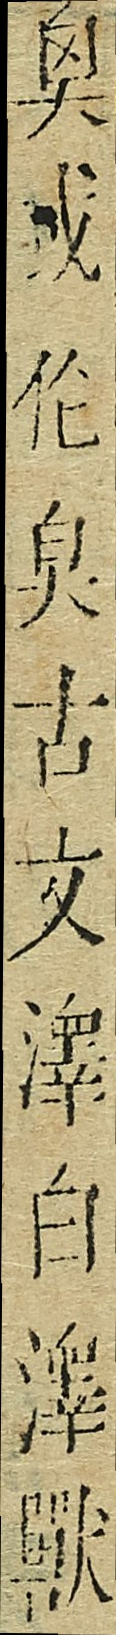臭或倫臭古文澤白澤獸
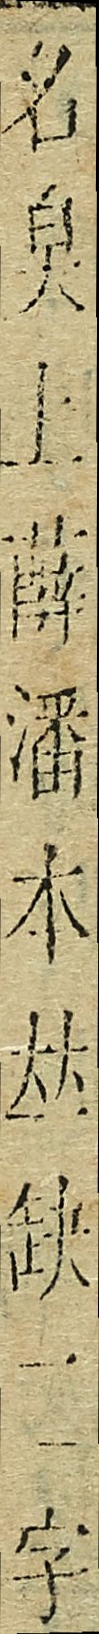名臭上薛潘本從缺二字
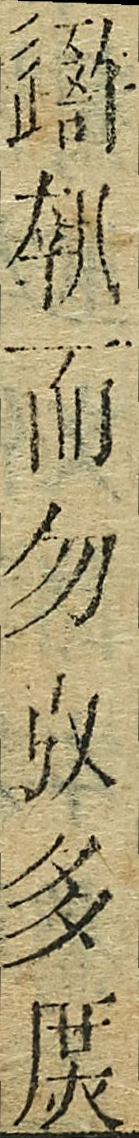？執而勿?多？
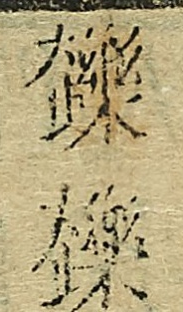？？
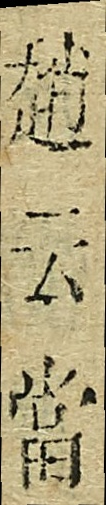趙云當
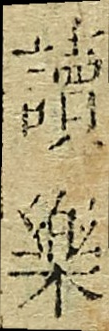讀樂
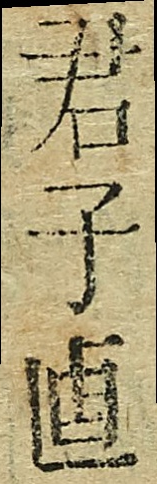君子直
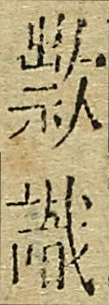㱁識
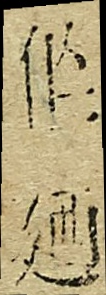伦廼
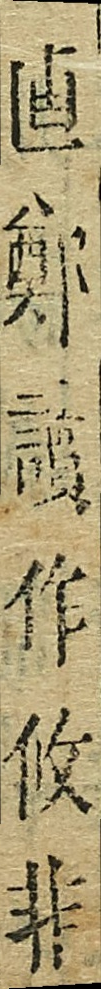直鄭讀作攸非
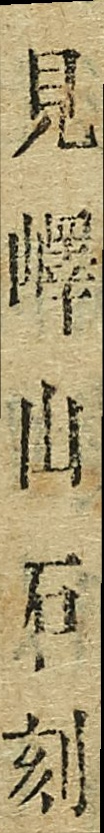見嶧山石刻
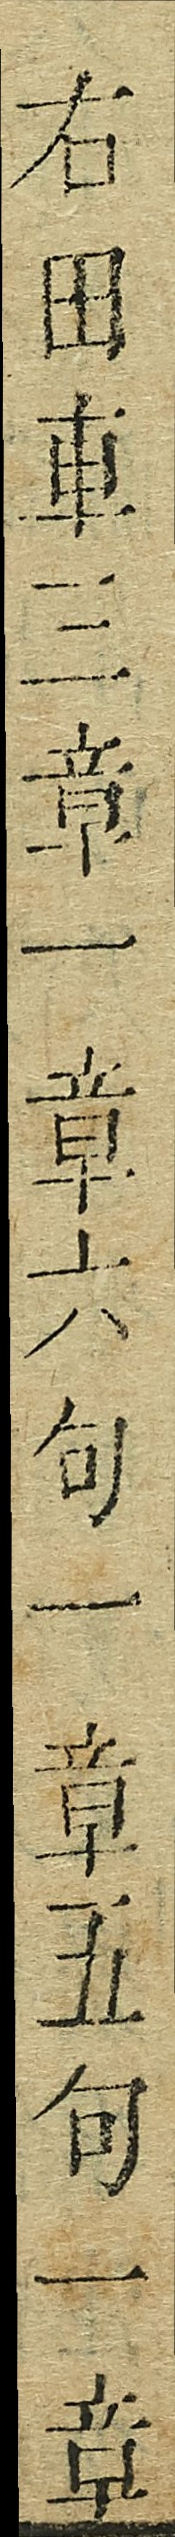右田車三章一章六句一章五句一章
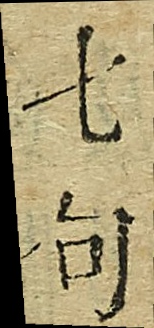七句
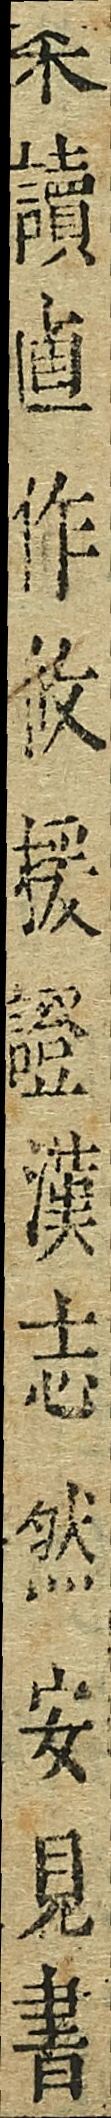禾讀直作攸援證漢志然安見書
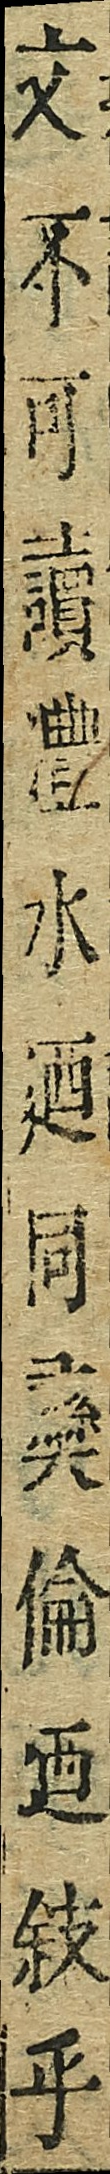文不可讀豐水廼同奚倫廼敍乎
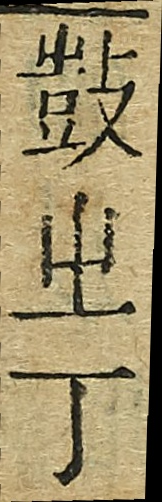鼓車丁
